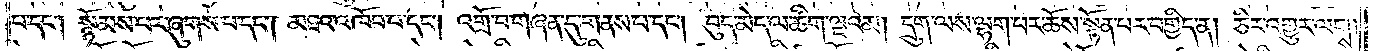པ་དང༌། སྙོམས་པར་ཞུགས་པ་དང༌། མཐའ་འཁོབ་པ་དང༌། འགྲོ་བ་གཞན་དུ་གནས་པ་དང༌། བུད་མེད་ལ་ཚིག་ལྔའམ། དྲུག་ལས་ལྷག་པར་ཆོས་སྟོན་པར་བགྱིད་ན། ཅིར་འགྱུར་ལགས།
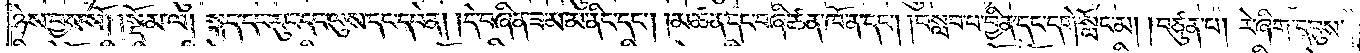ཉེས་བྱས་སོ། །སྡོམ་ལ། སྐད་དང་རུང་དང་ལུས་དང་དབེན། །དེ་བཞིན་ཟ་མ་མ་ནིང་དང༌། །མཚན་དང་བཞི་ཚན་ཁོ་ན་དང༌། །བསླབ་པ་བྱིན་དང་དགེ་སློང་མ། །བཙུན་པ། རེ་ཞིག་དབུས་
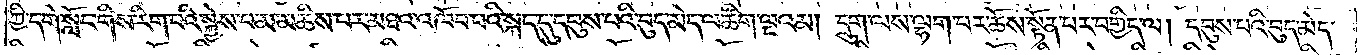ཀྱི་དགེ་སློང་གིས་རིག་པའི་སྐྱེས་པ་མ་མཆིས་པར་མཐའ་འཁོབ་པའི་སྐད་དུ་དབུས་པའི་བུད་མེད་ལ་ཚིག་ལྔའམ། དྲུག་ལས་ལྷག་པར་ཆོས་སྟོན་པར་བགྱིད་ལ། དབུས་པའི་བུད་མེད་
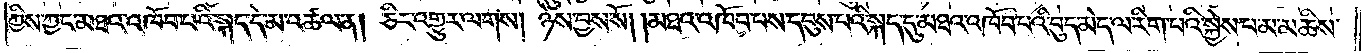ཀྱིས་ཀྱང་མཐའ་འཁོབ་པའི་སྐད་དེ་མ་འཚལ་ན། ཅིར་འགྱུར་ལགས། ཉེས་བྱས་སོ། །མཐའ་འཁོབ་པས་དབུས་པའི་སྐད་དུ་མཐའ་འཁོབ་པའི་བུད་མེད་ལ་རིག་པའི་སྐྱེས་པ་མ་མཆིས་
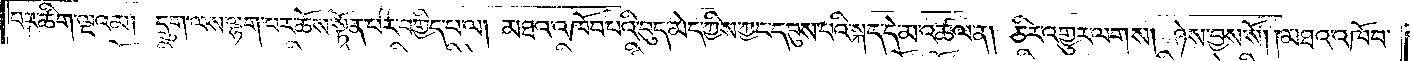པར་ཚིག་ལྔའམ། དྲུག་ལས་ལྷག་པར་ཆོས་སྟོན་པར་བགྱིད་པ་ལ། མཐའ་འཁོབ་པའི་བུད་མེད་ཀྱིས་ཀྱང་དབུས་པའི་སྐད་དེ་མ་འཚལ་ན། ཅིར་འགྱུར་ལགས། ཉེས་བྱས་སོ། །མཐའ་འཁོབ་
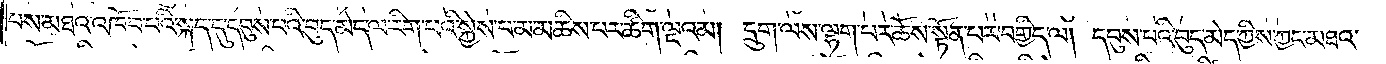པས་མཐའ་འཁོབ་པའི་སྐད་དུ་དབུས་པའི་བུད་མེད་ལ་རིག་པའི་སྐྱེས་པ་མ་མཆིས་པར་ཚིག་ལྔའམ། དྲུག་ལས་ལྷག་པར་ཆོས་སྟོན་པར་བགྱིད་ལ། དབུས་པའི་བུད་མེད་ཀྱིས་ཀྱང་མཐའ་
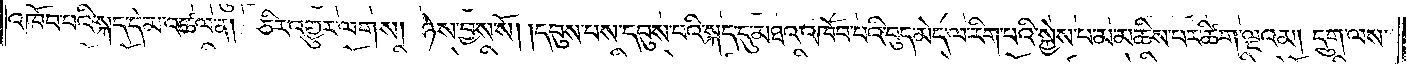འཁོབ་པའི་སྐད་དེ་མ་འཚལ་ན། ཅིར་འགྱུར་ལགས། ཉེས་བྱས་སོ། །དབུས་པས་དབུས་པའི་སྐད་དུ་མཐའ་འཁོབ་པའི་བུད་མེད་ལ་རིག་པའི་སྐྱེས་པ་མ་མཆིས་པར་ཚིག་ལྔའམ། དྲུག་ལས་
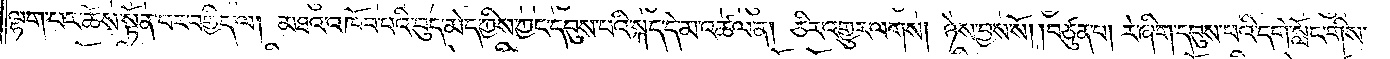ལྷག་པར་ཆོས་སྟོན་པར་བགྱིད་ལ། མཐའ་འཁོབ་པའི་བུད་མེད་ཀྱིས་ཀྱང་དབུས་པའི་སྐད་དེ་མ་འཚལ་ན། ཅིར་འགྱུར་ལགས། ཉེས་བྱས་སོ། །བཙུན་པ། རེ་ཞིག་དབུས་པའི་དགེ་སློང་གིས་
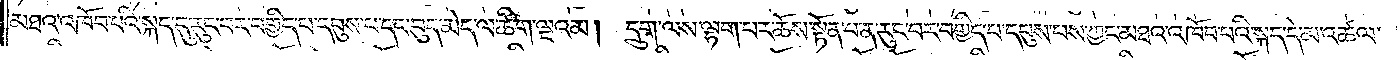མཐའ་འཁོབ་པའི་སྐད་དུ་རུང་བར་བགྱིད་པ་དབུས་པ་དང་བུད་མེད་ལ་ཚིག་ལྔའམ། དྲུག་ལས་ལྷག་པར་ཆོས་སྟོན་པ་ན་རུང་བར་བགྱིད་པ་དབུས་པས་ཀྱང་མཐའ་འཁོབ་པའི་སྐད་དེ་མ་འཚལ་
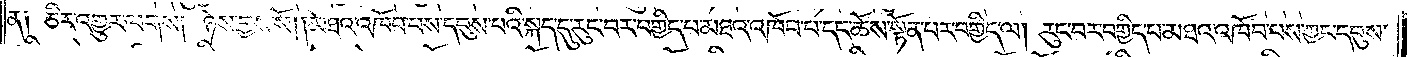ན༑ ཅིར་འགྱུར་ལགས། ཉེས་བྱས་སོ། །མཐའ་འཁོབ་པས་དབུས་པའི་སྐད་དུ་རུང་བར་བགྱིད་པ་མཐའ་འཁོབ་པ་དང་ཆོས་སྟོན་པར་བགྱིད་ལ། རུང་བར་བགྱིད་པ་མཐའ་འཁོབ་པས་ཀྱང་དབུས་
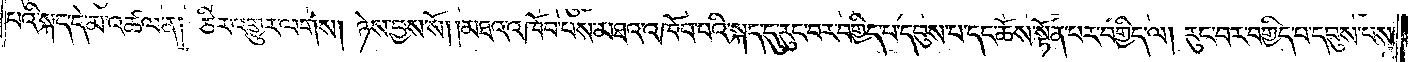པའི་སྐད་དེ་མ་འཚལ་ན། ཅིར་འགྱུར་ལགས། ཉེས་བྱས་སོ། །མཐའ་འཁོབ་པས་མཐའ་འཁོབ་པའི་སྐད་དུ་རུང་བར་བགྱིད་པ་དབུས་པ་དང་ཆོས་སྟོན་པར་བགྱིད་ལ། རུང་བར་བགྱིད་པ་དབུས་པས་
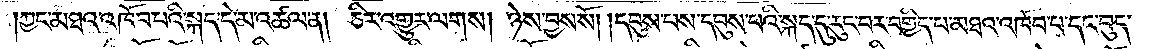ཀྱང་མཐའ་འཁོབ་པའི་སྐད་དེ་མ་འཚལ་ན། ཅིར་འགྱུར་ལགས། ཉེས་བྱས་སོ། །དབུས་པས་དབུས་པའི་སྐད་དུ་རུང་བར་བགྱིད་པ་མཐའ་འཁོབ་པ་དང་བུད་
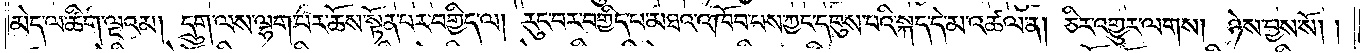མེད་ལ་ཚིག་ལྔའམ། དྲུག་ལས་ལྷག་པར་ཆོས་སྟོན་པར་བགྱིད་ལ། རུང་བར་བགྱིད་པ་མཐའ་འཁོབ་པས་ཀྱང་དབུས་པའི་སྐད་དེ་མ་འཚལ་ན། ཅིར་འགྱུར་ལགས། ཉེས་བྱས་སོ། །
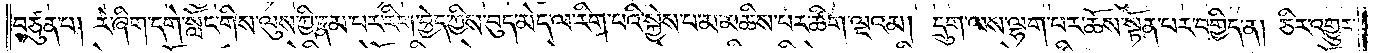བཙུན་པ། རེ་ཞིག་དགེ་སློང་གིས་ལུས་ཀྱི་རྣམ་པར་རིག་བྱེད་ཀྱིས་བུད་མེད་ལ་རིག་པའི་སྐྱེས་པ་མ་མཆིས་པར་ཚིག་ལྔའམ། དྲུག་ལས་ལྷག་པར་ཆོས་སྟོན་པར་བགྱིད་ན། ཅིར་འགྱུར་
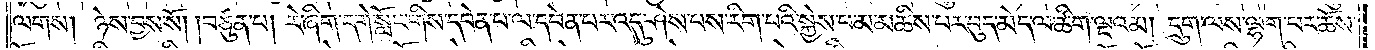ལགས། ཉེས་བྱས་སོ། །བཙུན་པ། རེ་ཞིག་དགེ་སློང་གིས་དབེན་པ་ལ་དབེན་པར་འདུ་ཤེས་པས་རིག་པའི་སྐྱེས་པ་མ་མཆིས་པར་བུད་མེད་ལ་ཚིག་ལྔའམ། དྲུག་ལས་ལྷག་པར་ཆོས་
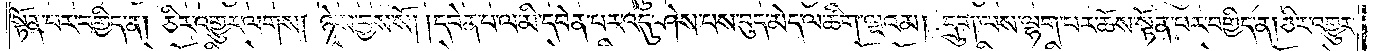སྟོན་པར་བགྱིད་ན། ཅིར་འགྱུར་ལགས། ཉེས་བྱས་སོ། །དབེན་པ་ལ་མི་དབེན་པར་འདུ་ཤེས་པས་བུད་མེད་ལ་ཚིག་ལྔའམ། དྲུག་ལས་ལྷག་པར་ཆོས་སྟོན་པར་བགྱིད་ན། ཅིར་འགྱུར་
